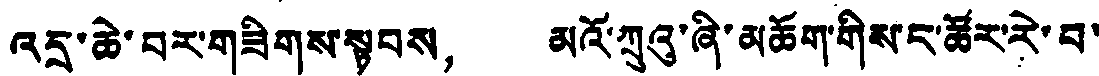འདྲ་ཆེ་བར་གཟིགས་སྟབས， མའོ་ཀྲུའུ་ཞི་མཆོག་གིས་ང་ཚོར་རེ་བ་
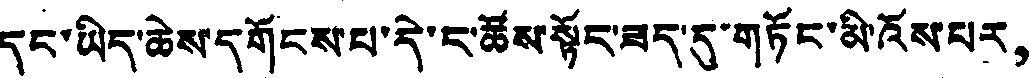དང་ཡིད་ཆེས་དགོངས་པ་དེ་ང་ཚོས་སྟོང་ཟད་དུ་གཏོང་མི་འོས་པར，
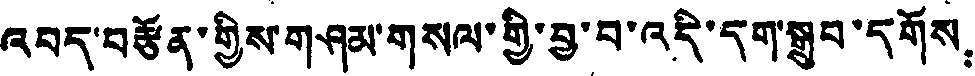འབད་བརྩོན་གྱིས་གཤམ་གསལ་གྱི་བྱ་བ་འདི་དག་སྒྲུབ་དགོས：
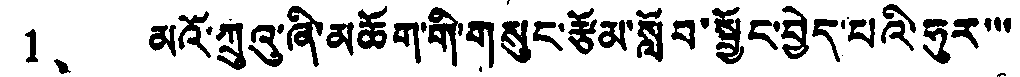1、 མའོ་ཀྲུའུ་ཞི་མཆོག་གི་གསུང་རྩོམ་སློབ་སྦྱོང་བྱེད་པའི་ཧུར་་་
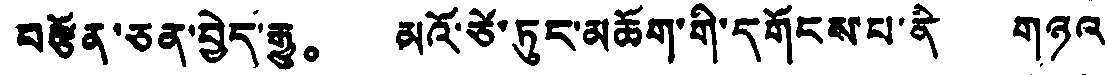བརྩོན་ཅན་བྱེད་རྒྱུ。 མའོ་ཙེ་ཏུང་མཆོག་གི་དགོངས་པ་ནི གཉའ་
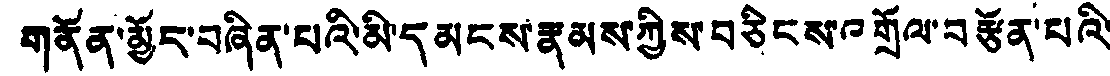གནོན་མྱོང་བཞིན་པའི་མི་དམངས་རྣམས་ཀྱིས་བཅིངས་འགྲོལ་བརྩོན་པའི་
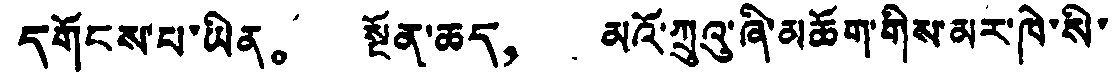དགོངས་པ་ཡིན。 སྔོན་ཆད， མའོ་ཀྲུའུ་ཞི་མཆོག་གིས་མར་ཁེ་སི་
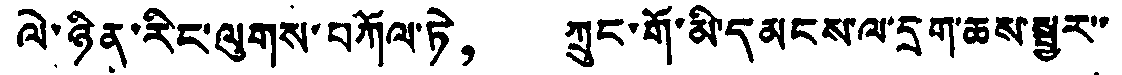ལེ་ཉིན་རིང་ལུགས་བཀོལ་ཏེ， ཀྲུང་གོ་མི་དམངས་ལ་དྲག་ཆས་སྦྱར་་
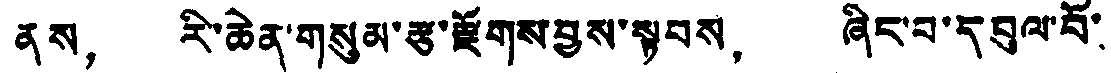ནས， རི་ཆེན་གསུམ་རྩ་རྫོགས་བྱས་སྟབས， ཞིང་བ་དབུལ་བོ་
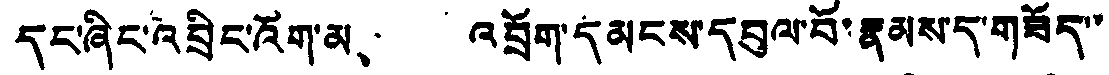དང་ཞིང་འབྲིང་འོག་མ、 འབྲོག་དམངས་དབུལ་བོ་རྣམས་ད་གཟོད་་
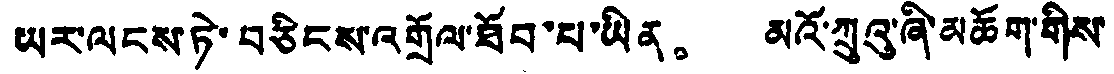ཡར་ལངས་ཏེ་བཅིངས་འགྲོལ་ཐོབ་པ་ཡིན。 མའོ་ཀྲུའུ་ཞི་མཆོག་གིས་
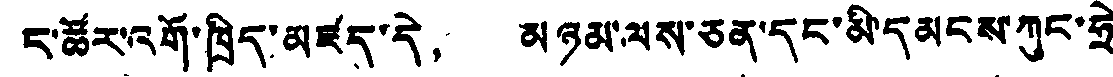ང་ཚོར་འགོ་ཁྲིད་མཛད་དེ， མཉམ་ལས་ཅན་དང་མི་དམངས་ཀུང་ཧྲེ་
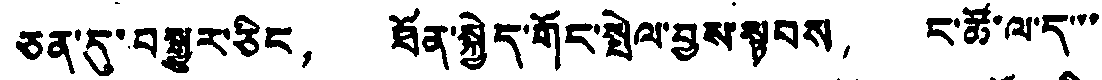ཅན་དུ་བསྒྱུར་ཅིང， ཐོན་སྐྱེད་གོང་སྤེལ་བྱས་སྟབས， ང་ཚོ་ལ་ད་་་
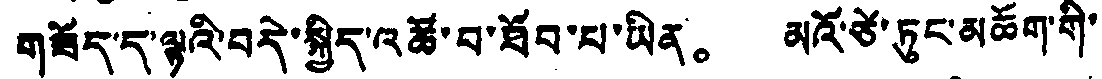གཟོད་ད་ལྟའི་བདེ་སྐྱིད་འཚོ་བ་ཐོབ་པ་ཡིན。 མའོ་ཙེ་ཏུང་མཆོག་གི་
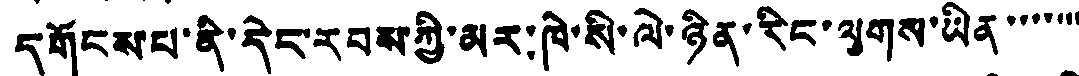དགོངས་པ་ནི་དེང་རབས་ཀྱི་མར་ཁེ་སི་ལེ་ཉིན་རིང་ལུགས་ཡིན་་་་་་་
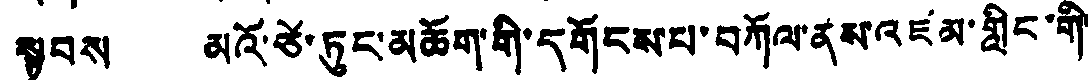སྟབས མའོ་ཙེ་ཏུང་མཆོག་གི་དགོངས་པ་བཀོལ་ནས་འཛམ་གླིང་གི་
